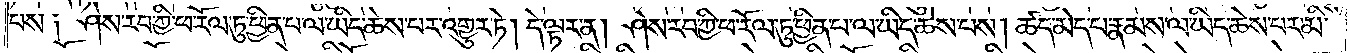པས༑ ཤེས་རབ་ཀྱི་ཕ་རོལ་ཏུ་ཕྱིན་པ་ལ་ཡིད་ཆེས་པར་འགྱུར་ཏེ། དེ་ལྟར་ན། ཤེས་རབ་ཀྱི་ཕ་རོལ་ཏུ་ཕྱིན་པ་ལ་ཡིད་ཆེས་པས། ཚད་མེད་པ་རྣམས་ལ་ཡིད་ཆེས་པར་མི་
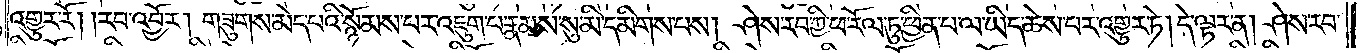འགྱུར་རོ། །རབ་འབྱོར། གཟུགས་མེད་པའི་སྙོམས་པར་འཇུག་པ་རྣམས་སུ་མི་དམིགས་པས། ཤེས་རབ་ཀྱི་ཕ་རོལ་ཏུ་ཕྱིན་པ་ལ་ཡིད་ཆེས་པར་འགྱུར་ཏེ། དེ་ལྟར་ན། ཤེས་རབ་
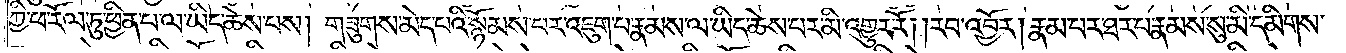ཀྱི་ཕ་རོལ་ཏུ་ཕྱིན་པ་ལ་ཡིད་ཆེས་པས། གཟུགས་མེད་པའི་སྙོམས་པར་འཇུག་པ་རྣམས་ལ་ཡིད་ཆེས་པར་མི་འགྱུར་རོ། །རབ་འབྱོར། རྣམ་པར་ཐར་པ་རྣམས་སུ་མི་དམིགས་
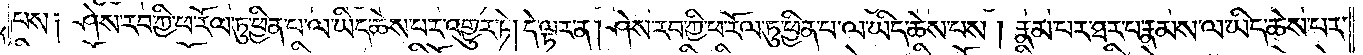པས༑ ཤེས་རབ་ཀྱི་ཕ་རོལ་ཏུ་ཕྱིན་པ་ལ་ཡིད་ཆེས་པར་འགྱུར་ཏེ། དེ་ལྟར་ན། ཤེས་རབ་ཀྱི་ཕ་རོལ་ཏུ་ཕྱིན་པ་ལ་ཡིད་ཆེས་པས། རྣམ་པར་ཐར་པ་རྣམས་ལ་ཡིད་ཆེས་པར་
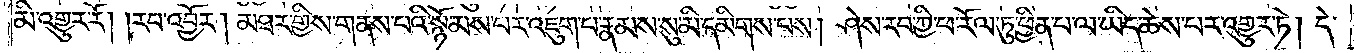མི་འགྱུར་རོ། །རབ་འབྱོར། མཐར་གྱིས་གནས་པའི་སྙོམས་པར་འཇུག་པ་རྣམས་སུ་མི་དམིགས་པས། ཤེས་རབ་ཀྱི་ཕ་རོལ་ཏུ་ཕྱིན་པ་ལ་ཡིད་ཆེས་པར་འགྱུར་ཏེ། དེ་
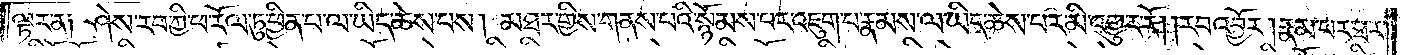ལྟར་ན༑ ཤེས་རབ་ཀྱི་ཕ་རོལ་ཏུ་ཕྱིན་པ་ལ་ཡིད་ཆེས་པས། མཐར་གྱིས་གནས་པའི་སྙོམས་པར་འཇུག་པ་རྣམས་ལ་ཡིད་ཆེས་པར་མི་འགྱུར་རོ། །རབ་འབྱོར། རྣམ་པར་ཐར་
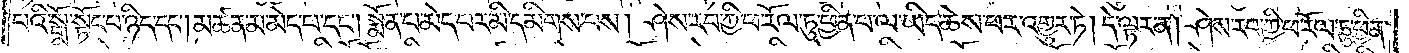པའི་སྒོ་སྟོང་པ་ཉིད་དང༌། མཚན་མ་མེད་པ་དང༌། སྨོན་པ་མེད་པར་མི་དམིགས་པས། ཤེས་རབ་ཀྱི་ཕ་རོལ་ཏུ་ཕྱིན་པ་ལ་ཡིད་ཆེས་པར་འགྱུར་ཏེ། དེ་ལྟར་ན། ཤེས་རབ་ཀྱི་ཕ་རོལ་ཏུ་ཕྱིན་
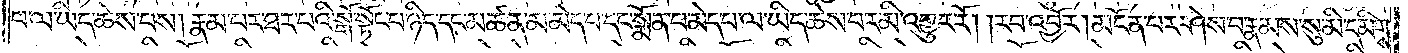པ་ལ་ཡིད་ཆེས་པས། རྣམ་པར་ཐར་པའི་སྒོ་སྟོང་པ་ཉིད་དང་མཚན་མ་མེད་པ་དང་སྨོན་པ་མེད་པ་ལ་ཡིད་ཆེས་པར་མི་འགྱུར་རོ། །རབ་འབྱོར། མངོན་པར་ཤེས་པ་རྣམས་སུ་མི་དམིགས་
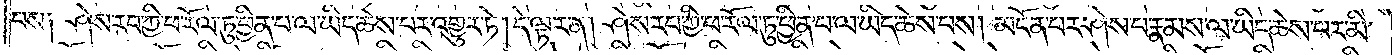པས༑ ཤེས་རབ་ཀྱི་ཕ་རོལ་ཏུ་ཕྱིན་པ་ལ་ཡིད་ཆེས་པར་འགྱུར་ཏེ། དེ་ལྟར་ན། ཤེས་རབ་ཀྱི་ཕ་རོལ་ཏུ་ཕྱིན་པ་ལ་ཡིད་ཆེས་པས། མངོན་པར་ཤེས་པ་རྣམས་ལ་ཡིད་ཆེས་པར་མི་
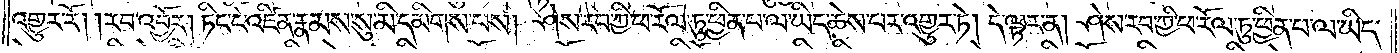འགྱུར་རོ། །རབ་འབྱོར། ཏིང་ངེ་འཛིན་རྣམས་སུ་མི་དམིགས་པས། ཤེས་རབ་ཀྱི་ཕ་རོལ་ཏུ་ཕྱིན་པ་ལ་ཡིད་ཆེས་པར་འགྱུར་ཏེ། དེ་ལྟར་ན། ཤེས་རབ་ཀྱི་ཕ་རོལ་ཏུ་ཕྱིན་པ་ལ་ཡིད་
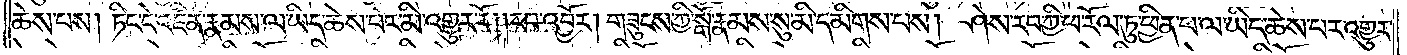ཆེས་པས། ཏིང་ངེ་འཛིན་རྣམས་ལ་ཡིད་ཆེས་པར་མི་འགྱུར་རོ། །རབ་འབྱོར། གཟུངས་ཀྱི་སྒོ་རྣམས་སུ་མི་དམིགས་པས། ཤེས་རབ་ཀྱི་ཕ་རོལ་ཏུ་ཕྱིན་པ་ལ་ཡིད་ཆེས་པར་འགྱུར་
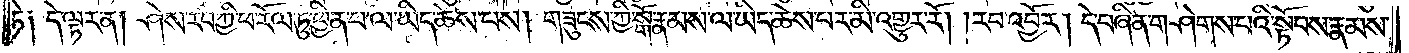ཏེ༑ དེ་ལྟར་ན། ཤེས་རབ་ཀྱི་ཕ་རོལ་ཏུ་ཕྱིན་པ་ལ་ཡིད་ཆེས་པས། གཟུངས་ཀྱི་སྒོ་རྣམས་ལ་ཡིད་ཆེས་པར་མི་འགྱུར་རོ། །རབ་འབྱོར། དེ་བཞིན་གཤེགས་པའི་སྟོབས་རྣམས་
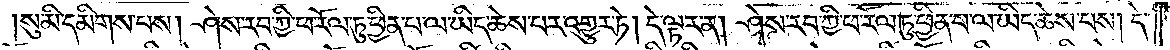སུ་མི་དམིགས་པས། ཤེས་རབ་ཀྱི་ཕ་རོལ་ཏུ་ཕྱིན་པ་ལ་ཡིད་ཆེས་པར་འགྱུར་ཏེ། དེ་ལྟར་ན། ཤེས་རབ་ཀྱི་ཕ་རོལ་ཏུ་ཕྱིན་པ་ལ་ཡིད་ཆེས་པས། དེ་
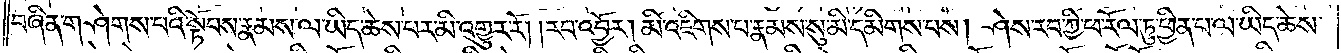བཞིན་གཤེགས་པའི་སྟོབས་རྣམས་ལ་ཡིད་ཆེས་པར་མི་འགྱུར་རོ། །རབ་འབྱོར། མི་འཇིགས་པ་རྣམས་སུ་མི་དམིགས་པས། ཤེས་རབ་ཀྱི་ཕ་རོལ་ཏུ་ཕྱིན་པ་ལ་ཡིད་ཆེས་
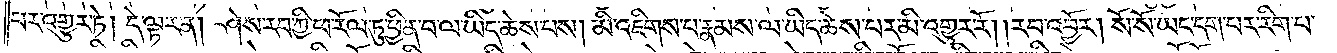པར་འགྱུར་ཏེ། དེ་ལྟར་ན། ཤེས་རབ་ཀྱི་ཕ་རོལ་ཏུ་ཕྱིན་པ་ལ་ཡིད་ཆེས་པས། མི་འཇིགས་པ་རྣམས་ལ་ཡིད་ཆེས་པར་མི་འགྱུར་རོ། །རབ་འབྱོར། སོ་སོ་ཡང་དག་པར་རིག་པ་
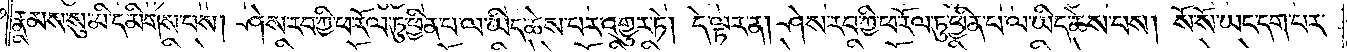རྣམས་སུ་མི་དམིགས་པས། ཤེས་རབ་ཀྱི་ཕ་རོལ་ཏུ་ཕྱིན་པ་ལ་ཡིད་ཆེས་པར་འགྱུར་ཏེ། དེ་ལྟར་ན། ཤེས་རབ་ཀྱི་ཕ་རོལ་ཏུ་ཕྱིན་པ་ལ་ཡིད་ཆེས་པས། སོ་སོ་ཡང་དག་པར་
